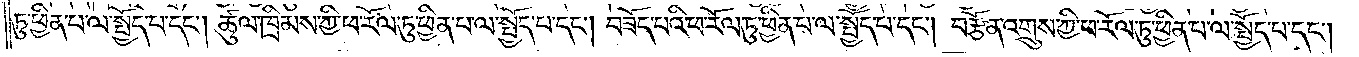ཏུ་ཕྱིན་པ་ལ་སྤྱོད་པ་དང༌། ཚུལ་ཁྲིམས་ཀྱི་ཕ་རོལ་ཏུ་ཕྱིན་པ་ལ་སྤྱོད་པ་དང༌། བཟོད་པའི་ཕ་རོལ་ཏུ་ཕྱིན་པ་ལ་སྤྱོད་པ་དང༌། བརྩོན་འགྲུས་ཀྱི་ཕ་རོལ་ཏུ་ཕྱིན་པ་ལ་སྤྱོད་པ་དང༌།
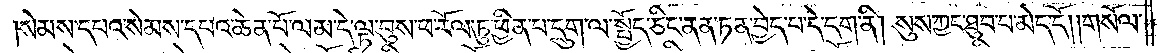སེམས་དཔའ་སེམས་དཔའ་ཆེན་པོ་ལམ་དེ་ལྟ་བུས་ཕ་རོལ་ཏུ་ཕྱིན་པ་དྲུག་ལ་སྤྱོད་ཅིང་ནན་ཏན་བྱེད་པ་དེ་དག་ནི། སུས་ཀྱང་ཐུབ་པ་མེད་དོ། །གསོལ་
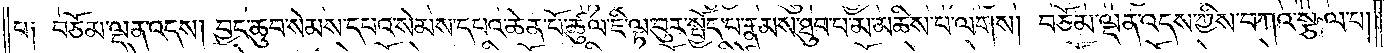པ༑ བཅོམ་ལྡན་འདས། བྱང་ཆུབ་སེམས་དཔའ་སེམས་དཔའ་ཆེན་པོ་ཚུལ་ཇི་ལྟ་བུར་སྤྱོད་པ་རྣམས་ཐུབ་པ་མ་མཆིས་པ་ལགས། བཅོམ་ལྡན་འདས་ཀྱིས་བཀའ་སྩལ་པ།
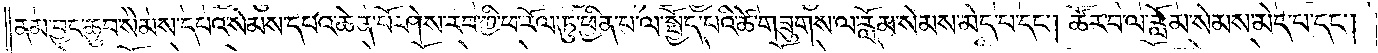ནམ་བྱང་ཆུབ་སེམས་དཔའ་སེམས་དཔའ་ཆེན་པོ་ཤེས་རབ་ཀྱི་ཕ་རོལ་ཏུ་ཕྱིན་པ་ལ་སྤྱོད་པའི་ཚེ་གཟུགས་ལ་རློམ་སེམས་མེད་པ་དང༌། ཚོར་བ་ལ་རློམ་སེམས་མེད་པ་དང༌།
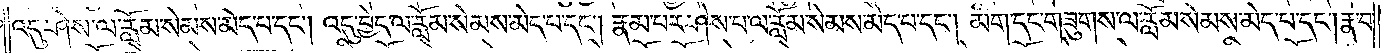འདུ་ཤེས་ལ་རློམ་སེམས་མེད་པ་དང༌། འདུ་བྱེད་ལ་རློམ་སེམས་མེད་པ་དང༌། རྣམ་པར་ཤེས་པ་ལ་རློམ་སེམས་མེད་པ་དང༌། མིག་དང་གཟུགས་ལ་རློམ་སེམས་མེད་པ་དང༌། རྣ་བ་
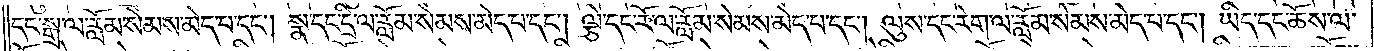དང་སྒྲ་ལ་རློམ་སེམས་མེད་པ་དང༌། སྣ་དང་དྲི་ལ་རློམ་སེམས་མེད་པ་དང༌། ལྕེ་དང་རོ་ལ་རློམ་སེམས་མེད་པ་དང༌། ལུས་དང་རེག་ལ་རློམ་སེམས་མེད་པ་དང༌། ཡིད་དང་ཆོས་ལ་
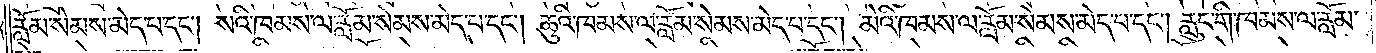རློམ་སེམས་མེད་པ་དང༌། སའི་ཁམས་ལ་རློམ་སེམས་མེད་པ་དང༌། ཆུའི་ཁམས་ལ་རློམ་སེམས་མེད་པ་དང༌། མེའི་ཁམས་ལ་རློམ་སེམས་མེད་པ་དང༌། རླུང་གི་ཁམས་ལ་རློམ་
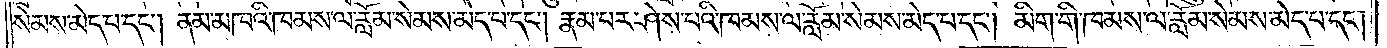སེམས་མེད་པ་དང༌། ནམ་མཁའི་ཁམས་ལ་རློམ་སེམས་མེད་པ་དང༌། རྣམ་པར་ཤེས་པའི་ཁམས་ལ་རློམ་སེམས་མེད་པ་དང༌། མིག་གི་ཁམས་ལ་རློམ་སེམས་མེད་པ་དང༌།
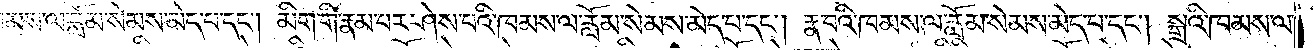ཁམས་ལ་རློམ་སེམས་མེད་པ་དང༌། མིག་གི་རྣམ་པར་ཤེས་པའི་ཁམས་ལ་རློམ་སེམས་མེད་པ་དང༌། རྣ་བའི་ཁམས་ལ་རློམ་སེམས་མེད་པ་དང༌། སྒྲའི་ཁམས་ལ་
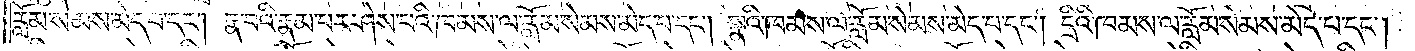རློམ་སེམས་མེད་པ་དང༌། རྣ་བའི་རྣམ་པར་ཤེས་པའི་ཁམས་ལ་རློམ་སེམས་མེད་པ་དང༌། སྣའི་ཁམས་ལ་རློམ་སེམས་མེད་པ་དང༌། དྲིའི་ཁམས་ལ་རློམ་སེམས་མེད་པ་དང༌།
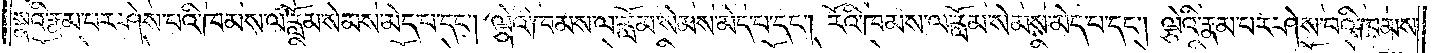སྣའི་རྣམ་པར་ཤེས་པའི་ཁམས་ལ་རློམ་སེམས་མེད་པ་དང༌། ལྕེའི་ཁམས་ལ་རློམ་སེམས་མེད་པ་དང༌། རོའི་ཁམས་ལ་རློམ་སེམས་མེད་པ་དང༌། ལྕེའི་རྣམ་པར་ཤེས་པའི་ཁམས་
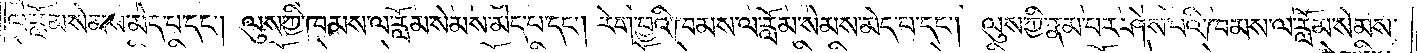ལ་རློམ་སེམས་མེད་པ་དང༌། ལུས་ཀྱི་ཁམས་ལ་རློམ་སེམས་མེད་པ་དང༌། རེག་བྱའི་ཁམས་ལ་རློམ་སེམས་མེད་པ་དང༌། ལུས་ཀྱི་རྣམ་པར་ཤེས་པའི་ཁམས་ལ་རློམ་སེམས་
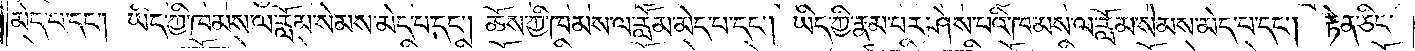མེད་པ་དང༌། ཡིད་ཀྱི་ཁམས་ལ་རློམ་སེམས་མེད་པ་དང༌། ཆོས་ཀྱི་ཁམས་ལ་རློམ་མེད་པ་དང༌། ཡིད་ཀྱི་རྣམ་པར་ཤེས་པའི་ཁམས་ལ་རློམ་སེམས་མེད་པ་དང༌། རྟེན་ཅིང་
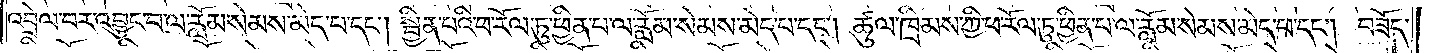འབྲེལ་བར་འབྱུང་བ་ལ་རློམ་སེམས་མེད་པ་དང༌། སྦྱིན་པའི་ཕ་རོལ་ཏུ་ཕྱིན་པ་ལ་རློམ་སེམས་མེད་པ་དང༌། ཚུལ་ཁྲིམས་ཀྱི་ཕ་རོལ་ཏུ་ཕྱིན་པ་ལ་རློམ་སེམས་མེད་པ་དང༌། བཟོད་
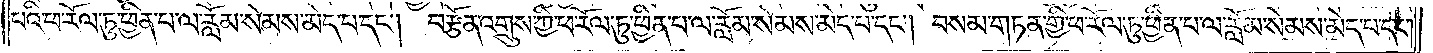པའི་ཕ་རོལ་ཏུ་ཕྱིན་པ་ལ་རློམ་སེམས་མེད་པ་དང༌། བརྩོན་འགྲུས་ཀྱི་ཕ་རོལ་ཏུ་ཕྱིན་པ་ལ་རློམ་སེམས་མེད་པ་དང༌། བསམ་གཏན་གྱི་ཕ་རོལ་ཏུ་ཕྱིན་པ་ལ་རློམ་སེམས་མེད་པ་དང༌།
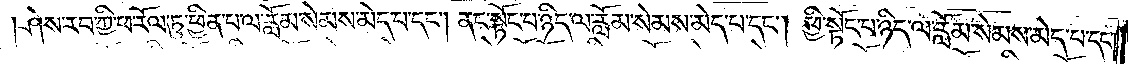ཤེས་རབ་ཀྱི་ཕ་རོལ་ཏུ་ཕྱིན་པ་ལ་རློམ་སེམས་མེད་པ་དང༌། ནང་སྟོང་པ་ཉིད་ལ་རློམ་སེམས་མེད་པ་དང༌། ཕྱི་སྟོང་པ་ཉིད་ལ་རློམ་སེམས་མེད་པ་དང༌།
